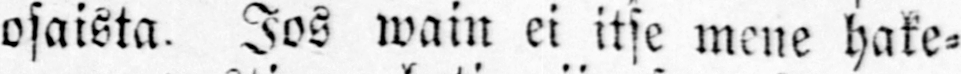osaista. Jos wain ei itse mene hake-
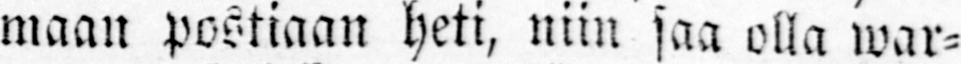maan postiaan heti, niin saa olla war-
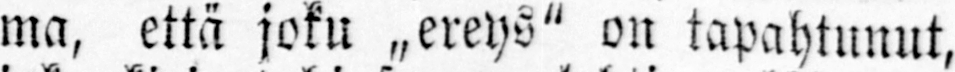ma, että joku „ereys" on tapahtunut,
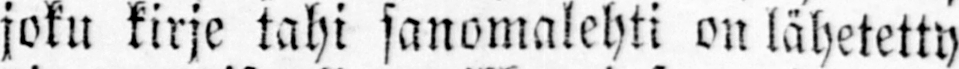joku kirje tahi sanomalehti on lähetetty
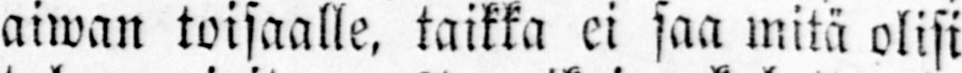aiwan toisaalle, taikka ei saa mitä olisi
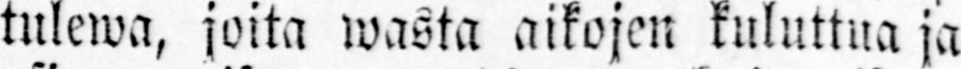tulewa, joita wasta aikojen kuluttua ja
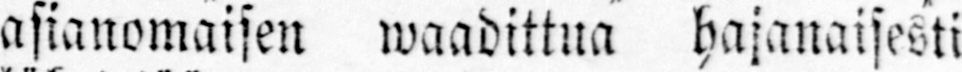asianomaisen waadittua hajanaisesti
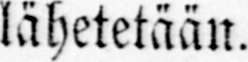lähetetään.
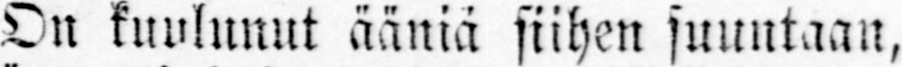On kuulunut ääniä siihen suuntaan,
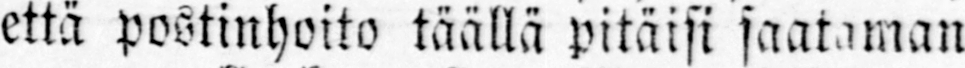että postinhoito täällä pitäisi saataman
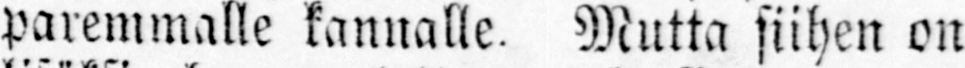paremmalle kannalle. Mutta siihen on
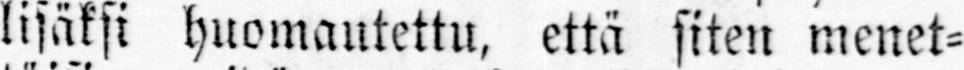lisäksi huomautettu, että siten menet-
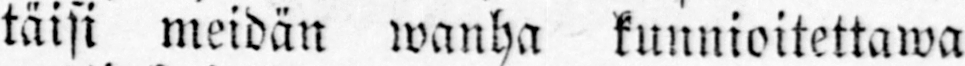täisi meidän wanha kunnioitettawa
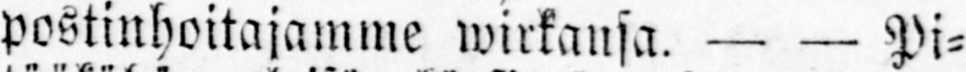postinhoitajamme wirkansa. — — Pi-
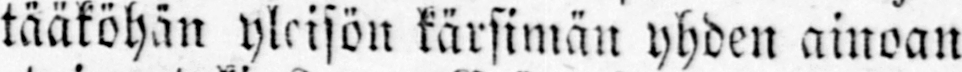tääköhän yleisön kärsimän yhden ainoan
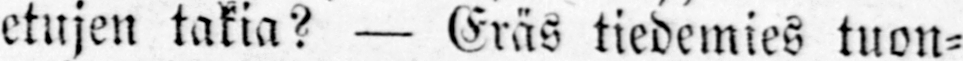etujen takia? — Eräs tiedemies tuon-
